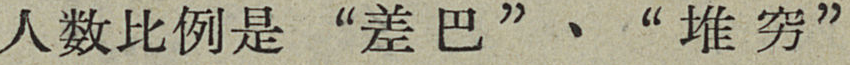人数比例是“差巴”、“堆穷”
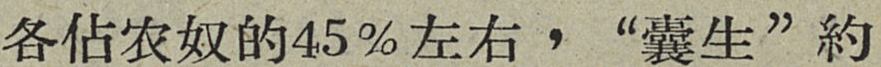各佔农奴的45％左右，“囊生”約
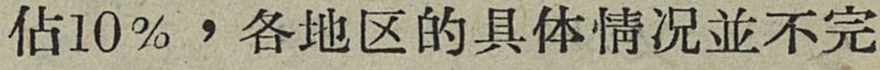佔10％，各地区的具体情况並不完
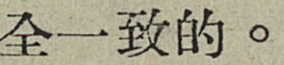全一致的。
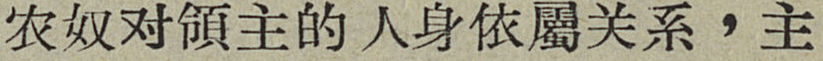农奴对領主的人身依屬关系，主
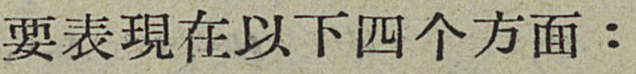要表現在以下四各方面：
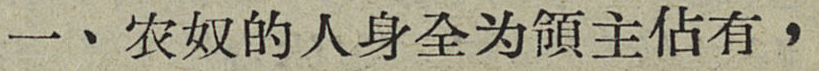一、农奴的人身全为領主佔有，
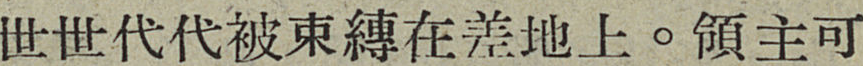世世代代被束縛在差地上。領主可
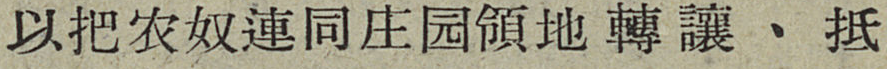以把农奴連同庄园領地轉讓、抵
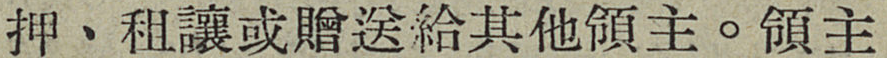押、租讓或贈送給其他領主。領主
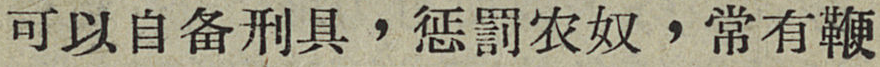可以自备刑具，惩罰农奴，常有鞭
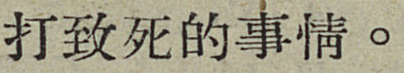打致死的事情。
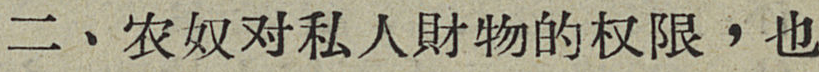二、农奴对私人財物的权限，也
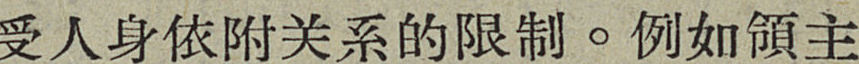受人身依附关系的限制。例如領主
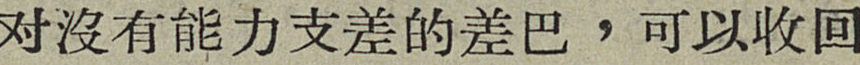对沒有能力支差的差巴，可以收回
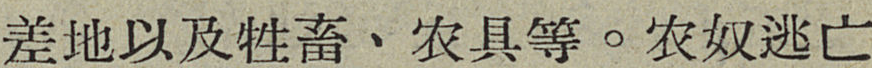差地以及牲畜、农具等。农奴逃亡
